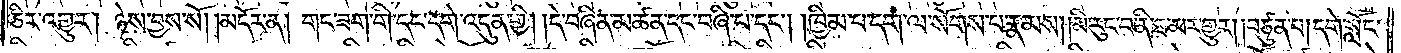ཅིར་འགྱུར། ཉེས་བྱས་སོ།    །མདོར་ན། གང་ཟག་གི་དང་དགེ་འདུན་གྱི། །དེ་བཞིན་མཚན་དང་བཞི་པ་དང༌། །ཁྱིམ་པ་དག་ལ་སོགས་པ་རྣམས། །མི་རུང་བ་ནི་ཐ་མར་གྱུར། །བཙུན་པ། དགེ་སློང་
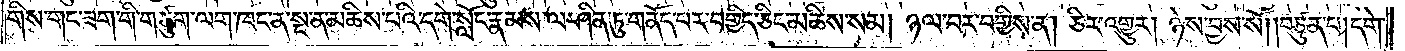གིས་གང་ཟག་གི་གཙུག་ལག་ཁང་ན་སྔ་ན་མཆིས་པའི་དགེ་སློང་རྣམས་ལ་ཤིན་ཏུ་གནོད་པར་བགྱིད་ཅིང་མཆིས་སམ། ཉལ་བར་བགྱིས་ན། ཅིར་འགྱུར། ཉེས་བྱས་སོ། །བཙུན་པ། དགེ་
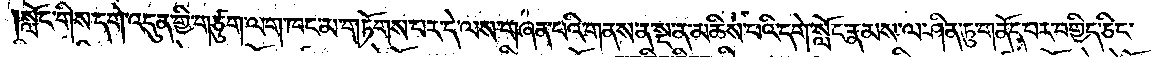སློང་གིས་དགེ་འདུན་གྱི་གཙུག་ལག་ཁང་མ་གཏོགས་པར་དེ་ལས་གཞན་པའི་གནས་ན་སྔ་ན་མཆིས་པའི་དགེ་སློང་རྣམས་ལ་ཤིན་ཏུ་གནོད་པར་བགྱིད་ཅིང་
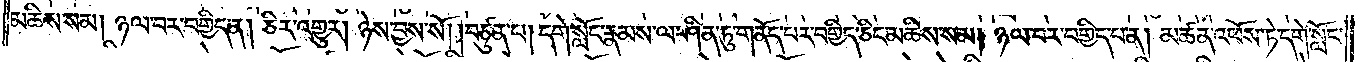མཆིས་སམ། ཉལ་བར་བགྱིད་ན། ཅིར་འགྱུར། ཉེས་བྱས་སོ། །བཙུན་པ། དགེ་སློང་རྣམས་ལ་ཤིན་ཏུ་གནོད་པར་བགྱིད་ཅིང་མཆིས་སམ། ཉལ་བར་བགྱིད་པ་ན། མཚན་འཕོས་ཏེ་དགེ་སློང་
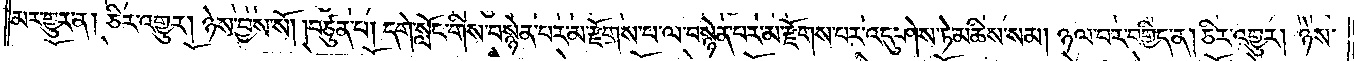མར་གྱུར་ན། ཅིར་འགྱུར། ཉེས་བྱས་སོ། །བཙུན་པ། དགེ་སློང་གིས་བསྙེན་པར་མ་རྫོགས་པ་ལ་བསྙེན་པར་མ་རྫོགས་པར་འདུ་ཤེས་ཏེ་མཆིས་སམ། ཉལ་བར་བགྱིད་ན། ཅིར་འགྱུར། ཉེས་
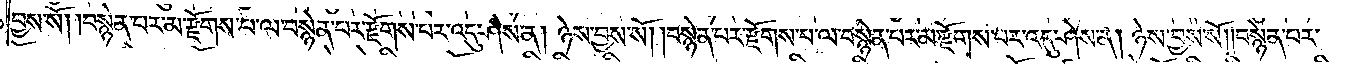བྱས་སོ། །བསྙེན་པར་མ་རྫོགས་པ་ལ་བསྙེན་པར་རྫོགས་པར་འདུ་ཤེས་ན། ཉེས་བྱས་སོ། །བསྙེན་པར་རྫོགས་པ་ལ་བསྙེན་པར་མ་རྫོགས་པར་འདུ་ཤེས་ན། ཉེས་བྱས་སོ། །བསྙེན་པར་
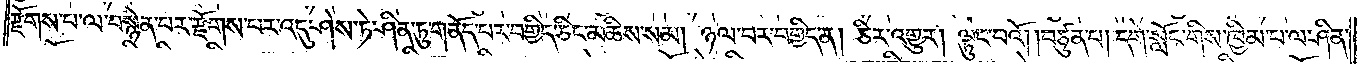རྫོགས་པ་ལ་བསྙེན་པར་རྫོགས་པར་འདུ་ཤེས་ཏེ་ཤིན་ཏུ་གནོད་པར་བགྱིད་ཅིང་མཆིས་སམ། ཉལ་བར་བགྱིད་ན། ཅིར་འགྱུར། ལྟུང་བའོ། །བཙུན་པ། དགེ་སློང་གིས་ཁྱིམ་པ་ལ་ཤིན་
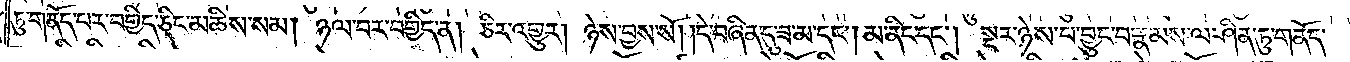ཏུ་གནོད་པར་བགྱིད་ཅིང་མཆིས་སམ། ཉལ་བར་བགྱིད་ན། ཅིར་འགྱུར། ཉེས་བྱས་སོ། །དེ་བཞིན་དུ་ཟ་མ་དང༌། མ་ནིང་དང༌། སྔར་ཉེས་པ་བྱུང་བ་རྣམས་ལ་ཤིན་ཏུ་གནོད་
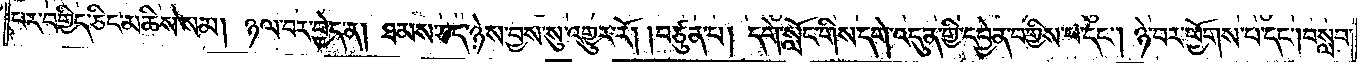པར་བགྱིད་ཅིང་མཆིས་སམ། ཉལ་བར་བྱེད་ན། ཐམས་ཅད་ཉེས་བྱས་སུ་འགྱུར་རོ། །བཙུན་པ། དགེ་སློང་གིས་དགེ་འདུན་གྱི་དབྱེན་བགྱིས་པ་དང༌། ཉེ་བར་ཕྱོགས་པ་དང༌། བསླབ་
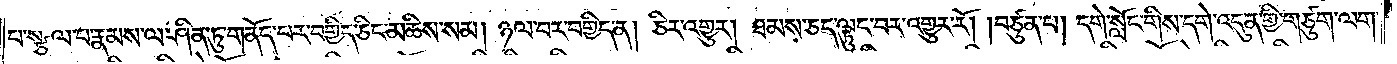པ་སྩལ་པ་རྣམས་ལ་ཤིན་ཏུ་གནོད་བར་བགྱིད་ཅིང་མཆིས་སམ། ཉལ་བར་བགྱིད་ན། ཅིར་འགྱུར། ཐམས་ཅད་ལྟུང་བར་འགྱུར་རོ། །བཙུན་པ། དགེ་སློང་གིས་དགེ་འདུན་གྱི་གཙུག་ལག་
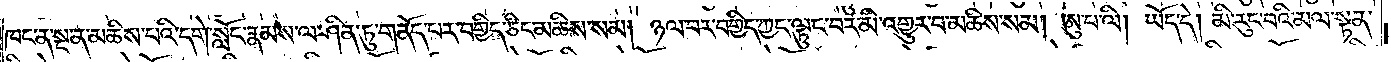ཁང་ན་སྔ་མ་མཆིས་པའི་དགེ་སློང་རྣམས་ལ་ཤིན་ཏུ་གནོད་པར་བགྱིད་ཅིང་མཆིས་སམ། ཉལ་བར་བགྱིད་ཀྱང་ལྟུང་བར་མི་འགྱུར་བ་མཆིས་སམ། ཨུ་པ་ལི། ཡོད་དེ། མི་རུང་བའི་མལ་སྟན་
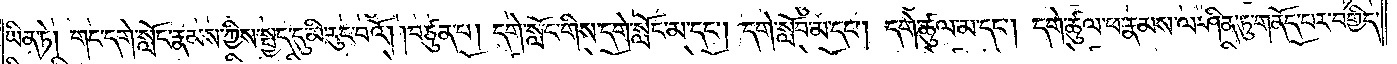ཡིན་ཏེ། གང་དགེ་སློང་རྣམས་ཀྱིས་སྤྱད་དུ་མི་རུང་བའོ། །བཙུན་པ། དགེ་སློང་གིས་དགེ་སློང་མ་དང༌། དགེ་སློབ་མ་དང༌། དགེ་ཚུལ་མ་དང༌། དགེ་ཚུལ་ཕ་རྣམས་ལ་ཤིན་ཏུ་གནོད་པར་བགྱིད་
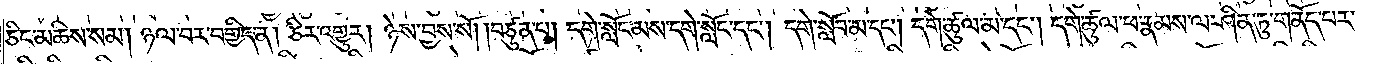ཅིང་མཆིས་སམ། ཉལ་བར་བགྱིད་ན། ཅིར་འགྱུར། ཉེས་བྱས་སོ། །བཙུན་པ། དགེ་སློང་མས་དགེ་སློང་དང༌། དགེ་སློབ་མ་དང༌། དགེ་ཚུལ་མ་དང༌། དགེ་ཚུལ་ཕ་རྣམས་ལ་ཤིན་ཏུ་གནོད་པར་
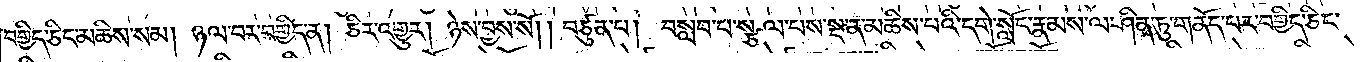བགྱིད་ཅིང་མཆིས་སམ། ཉལ་བར་བགྱིད་ན། ཅིར་འགྱུར། ཉེས་བྱས་སོ། །བཙུན་པ། བསླབ་པ་སྩལ་པས་སྔ་ན་མཆིས་པའི་དགེ་སློང་རྣམས་ལ་ཤིན་ཏུ་གནོད་པར་བགྱིད་ཅིང་
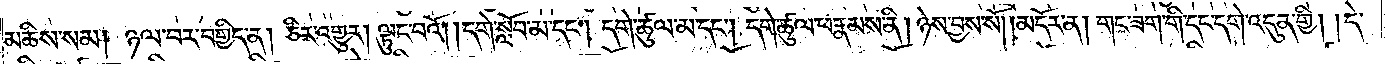མཆིས་སམ། ཉལ་བར་བགྱིད་ན། ཅིར་འགྱུར། ལྟུང་བའོ། །དགེ་སློབ་མ་དང༌། དགེ་ཚུལ་མ་དང༌། དགེ་ཚུལ་ཕ་རྣམས་ནི། ཉེས་བྱས་སོ། །མདོར་ན། གང་ཟག་གི་དང་དགེ་འདུན་གྱི། །དེ་
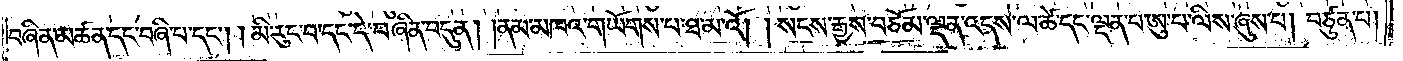བཞིན་མཚན་དང་བཞི་པ་དང༌། །མི་རུང་བ་དང་དེ་བཞིན་བདུན། །ནམ་མཁའ་གཡོགས་པ་ཐ་མ་འོ། །སངས་རྒྱས་བཅོམ་ལྡན་འདས་ལ་ཚེ་དང་ལྡན་པ་ཨུ་པ་ལིས་ཞུས་པ། བཙུན་པ།
